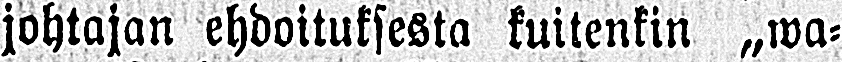johtajan ehdoituksesta kuitenkin „wa-
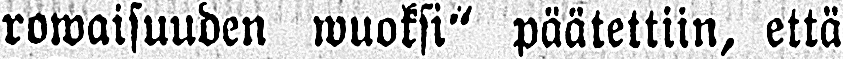rowaisuuden wuoksi" päätettiin, että
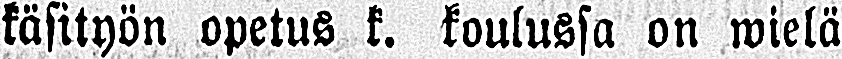käsityön opetus k. koulussa on wielä
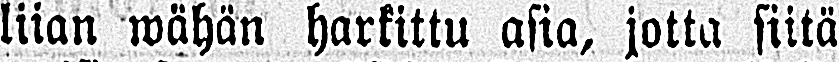liian wähän harkittu asia, jotta siitä
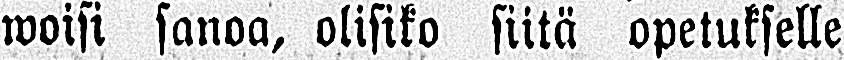woisi sanoa, olisiko siitä opetukselle
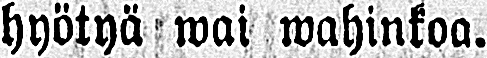hyötyä wai wahinkoa.
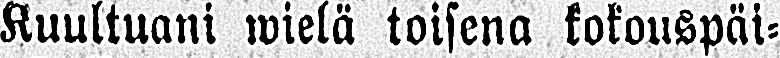Kuultuani wielä toisena kokouspäi-
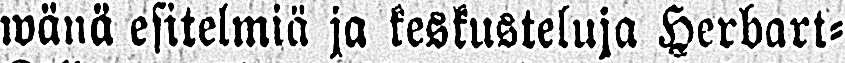wänä esitelmiä ja keskusteluja Herbart-
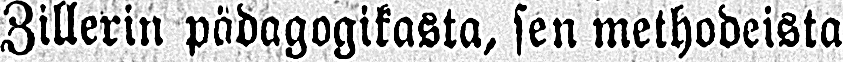Zillerin pädagogikasta, sen methodeista
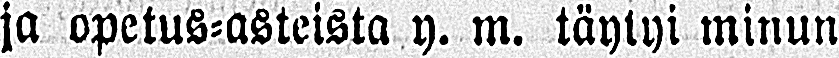ja opetus-asteista y. m. täytyi minun
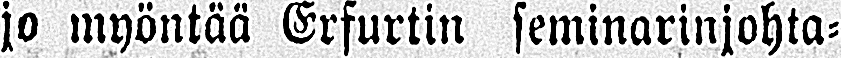jo myöntää Erfurtin seminarinjohta-
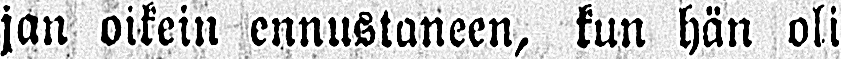jan oikein ennustaneen, kun hän oli
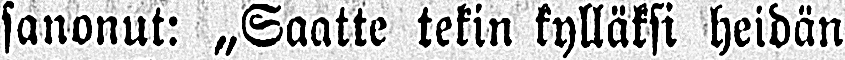sanonut: „Saatte tekin kylläksi heidän
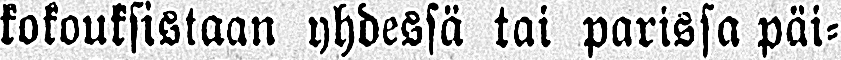kokouksistaan yhdessä tai parissa päi-
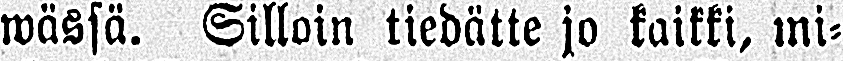wässä. Silloin tiedätte jo kaikki, mi-
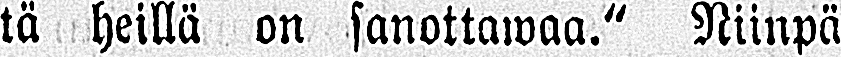tä heillä on sanottawaa." Niinpä
